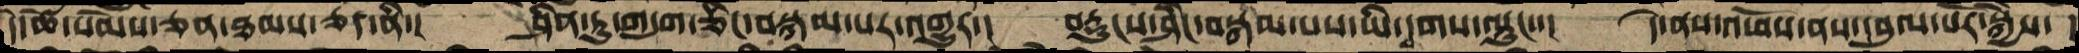དེ་ཚེ་སེམས་ཅན་ཐམས་ཅད་ནི་།  ཤིན་ཏུ་གདུག་ཅིང་བསྐམ་པར་འགྱུར་།  བརྡུངས་ཤིང་བསྐམ་པས་ཡི་དྭགས་ལྟུང་་།  དེ་ནས་འཕོས་ནས་དབུལ་པོར་སྐྱེས་ །
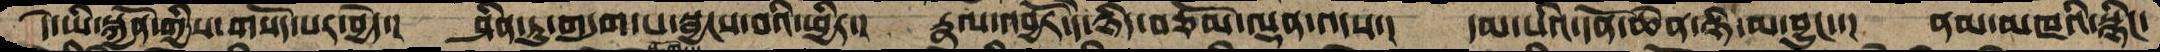དེ་ཡི་སྐྱོན་གྱིས་གསོད་པར་བྱེད་།  ཤིན་ཏུ་གདུག་པ་སྦྱངས་བའི་ཕྱིར་།  རྣལ་འབྱོར་དེ་ཉིད་བཅོམ་ལྡན་འདས་།  དམ་པའི་དོན་ཆེན་ཉི་མ་བྱུང་་།  ནམ་མཁའི་སྙིང་
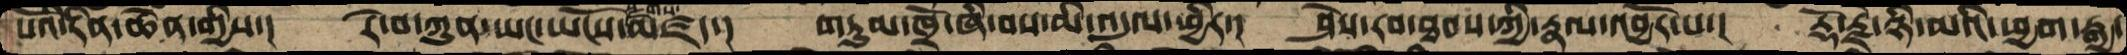པོའི་རིན་ཆེན་གྱིས་།  རེ་བ་ཀུན་ཡང་ཡོངས་སྫོགས་མཛད་།  གཏུམ་ཁྲོ་ཞི་བས་མི་འདུལ་ཕྱིར་།  ཤེས་རབ་ཐབས་ཀྱི་རྣལ་འབྱོར་པ་།  རྡོ་རྗེ་ཉི་མའི་ཕྱག་རྒྱ་
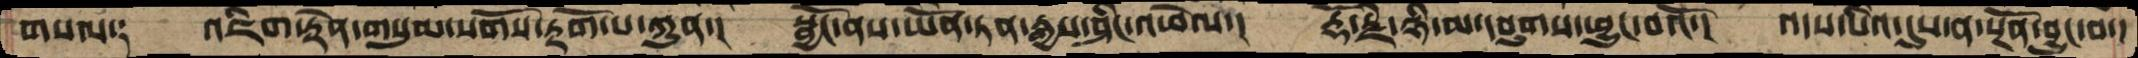གསལ་༑  འཇིག་རྟེན་གསུམ་སོགས་རྟོག་པ་ཀུན་།  སྦྱོང་ནས་ཡོན་ཏན་རྒྱས་ཤིང་འཕེལ་།  རྡོ་རྗེ་ཉི་མ་དབུགས་ཕྱུང་བའོ་།  འདས་པའི་དུས་ན་སྔོན་བྱུང་བ་།
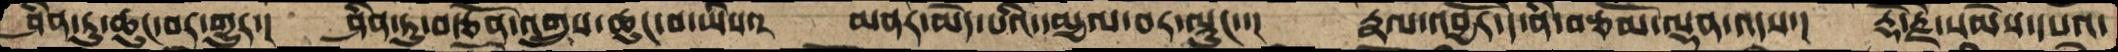ཤིན་ཏུ་ཆུང་བར་གྱུར་།  ཤིན་ཏུ་བརྩོན་འགྲུས་ཆུང་བ་ཡིས་།  མནར་མེད་པའི་དམྱལ་བར་ལྟུང་་།  རྣལ་འབྱོར་དེ་ནི་བཅོམ་ལྡན་འདས་།  རྡོ་རྗེ་སེམས་དཔའ་
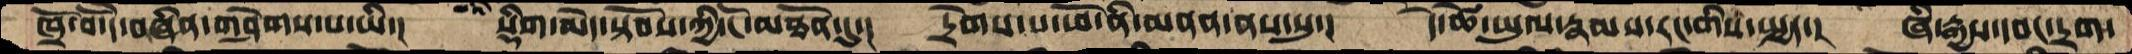ཁྲོ་བོ་དེ་བཞིན་གཤེགས་པ་ཡི་།  སྡིག་མེད་སྟོབས་ཀྱི་ངོ་མཐོན་དུ་།  དྲེགས་པ་ཕོ་ནི་མནན་ནས་སུ་།  དེ་ཚེ་ཡུལ་རྣམས་རང་གིས་སྤྱད་།  ཞི་རྒྱས་དབང་དྲག་
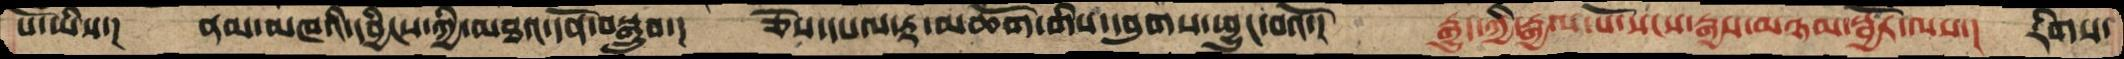པོ་ཡིས་།  ནམ་མཁའི་དབྱིངས་ཀྱི་མཐའ་དོན་བསྒྲུབ་།  ཅེས་དཔལ་རྟ་མཆོག་དབུགས་ཕྱུང་བའོ་།  རྒྱུད་ཀྱི་རྒྱལ་པོ་སངས་རྒྱས་མཉམ་སྦྱོར་ལས་།  རིགས་
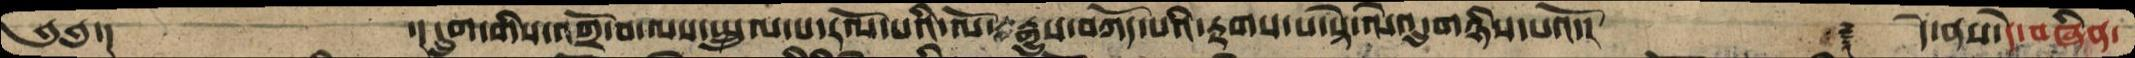༄༅་།   ་།དྲུག་གིས་འགྲོ་བ་ལས་སྤྲུལ་པ་རོལ་པའི་ལོ་རྒྱུས་བཀོད་པའི་རྟགས་པ་སྟེ་ལེའུ་གཉིས་པའོ་།  ༈  དེ་ནས་དེ་བཞིན་
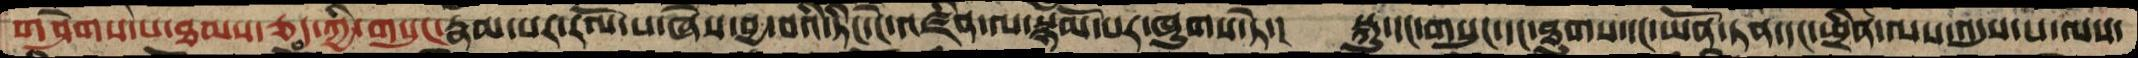གཤེགས་པ་ཐམས་ཅད་ཀྱི་གསུང་རྣམ་པར་རོལ་པ་ཞེས་བྱ་བའི་ཏིང་ངེ་འཛིན་ལ་སྙོམ་པར་ཞུགས་ཏེ་།  སྐུ་དང་གསུང་དང་ཐུགས་དང་ཡོན་ཏན་དང་ཕྲིན་ལས་འདུས་པ་ལས་
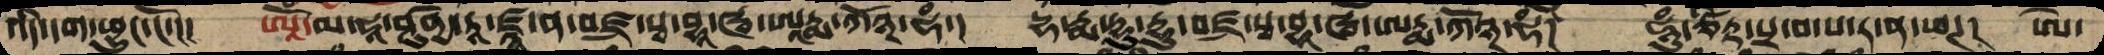འདི་དག་ཕྱུང་ངོ་།།  ཨོཾ་མ་ཧཱ་ཤུནྱེ་ཏཱ་ཛྙཱ་ན་བཛྲ་སྭ་བྷཱ་ཝ་ཨཱཏྨ་ཀོ྅་ཧཾ་།  དྷ་རྨ་དྷུ་དྷུ་བཛྲ་སྭ་བྷཱ་ཝ་ཨཏྨ་ཀོ྅་ཧཾ།  ཧཱུཾ་ཙིཏྟ་པྲ་བ་ས་ར་ན་ཕཊ། ཨེ་
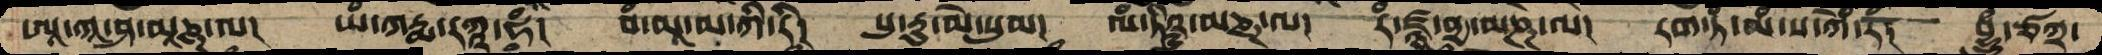ཨཱ་ཀཱ་ཤ་མཱཎྜ་ལ།  ཡཾ་ཀརྨ་རཀྵ་ཧཾ།  བཾ་མཱ་མ་ཀི་རི།  སུ་རུ་མེ་སུམ།  ལཾ་ཏིཥྛ་མཎྜ་ལ།  རཾ་ཛྙ་བྱ་མཎྜ་ལ།  རག་ཏཾ་མཾ་ས་ཀོཾ་རཾ།  བྷྱུཾ་ཙཀྲ་
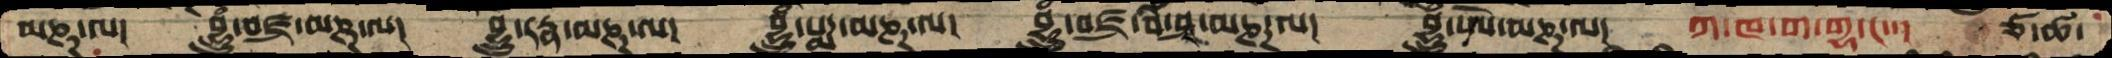མཎྜ་ལ།  བྷྲུཾ་བཛྲ་མཎྜ་ལ།  བྷྲུ་རཏྣ་མཎྜ་ལ།   བྷྲུཾ་པདྨ་མཎྜ་ལ།  བྷྲུཾ་བཛྲ་བི་ཤྭ་མཎྜ་ལ།  བྷྲུཾ་ཨེ་མཎྜ་ལ།  ཀ་ཁ་ག་གྷ་ང་་།  ཙ་ཚ་
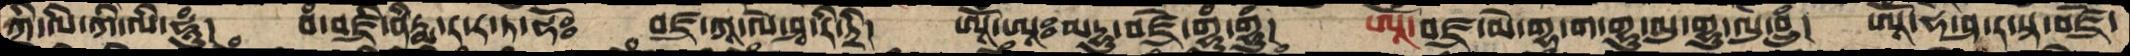ཀི་ལི་ཀི་ལི་ཧཱུཾ།  བཾ་བཛྲི་ནིརྨ་ར་ར་ཏ་ཧོཿ  བཛྲ་ཀཱ་ལེ་ཤྭ་རི་ཏྲི།  ཨཱོཾ་ཨཱཿམདྷུ་བཛྲེ་གྷུཾ་གྷུཾ།  ཨཱོཾ་བཛྲ་མེ་གྷུ་ག་གྷུ་ལུ་གྷུ་ལུ་བྲུཾ།  ཨཱོཾ་ཧ་ཤ་ར་སྟ་བཛྲེ་
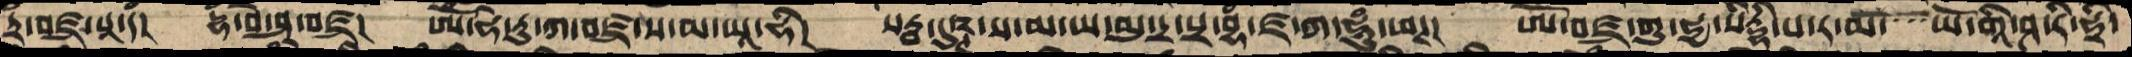ཏྲཾ་བཛྲ་སཱ་དཾ།  དྷ་བེ་ཤཱ་བཛྲ།  ཨོཾ་ཧེ་རུ་ཀ་བཛྲ་ས་མ་ཡཱ་ཧི།  སརྦ་དུཥྚ་ས་མ་ཡ་མུ་དྲ་སྲ་བྷཾ་ཛ་ཀ་ཧཱུཾ་ཕཊ།  ཨོཾ་བཛྲ་གུ་ཧྱ་སིདྡྷི་ས་ར་མོ་   ཡོ་གཱི་ཤ་རི་ཧྲི་
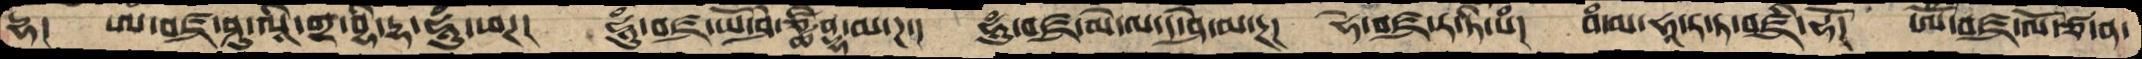དྷ།  ཨ་བཛྲ་ཤུ་ལཱི་གྲ་བྷི་དྷ་ཧཱུཾ་ཕཊ།  ཧཱུཾ་བཛྲ་ཡོ་ཤེ་ཙྪེནྡྷ་མ་ཌ་།  ཧཱུཾ་བཛྲ་མེ་ལ་ད་ཤེ་མ་ཌ།  ཧེ་བཛྲ་ར་ཏི་པཾ།  བཾ་མ་ཧཱ་ར་ཏ་བཛྲི་ཧོ།  ཨོཾ་བཛྲ་ལོ་ཙ་ན་
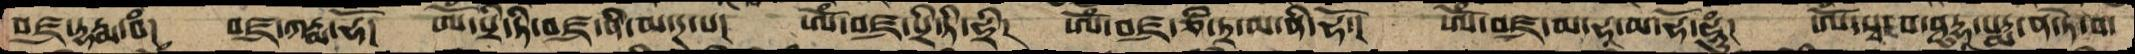བཛྲ་དྷརྨ་བཾ།  བཛྲ་ཀརྨ་ཧོ།  ཨོཾ་པྲི་ཏི་བཛྲ་ནི་མ་ཌ་པ།  ཨོཾ་བཛྲ་པྲི་ཏི་ཧྲི།  ཨོཾ་བཛྲ་ཙི་ཏྲ་མ་ནི་ཧོ།  ཨོཾ་བཛྲ་མ་ཧཱ་མ་ཧོ་ཧཱུཾ།  ཨོཾ་སྭ་བ་ཤུདྷ་པདྨ་ན་ཏེ་བ་
